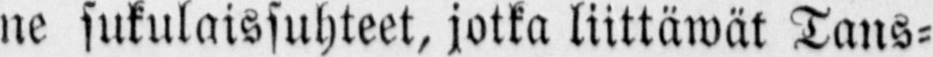ne sukulaissuhteet, jotka liittäwät Tans-
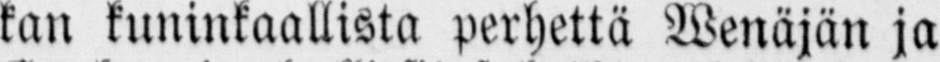kan kuninkaallista perhettä Wenäjän ja
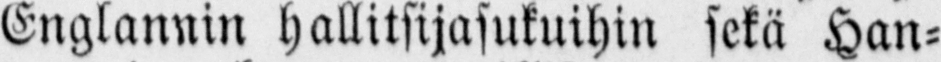Englannin hallitsijasukuihin sekä Han-
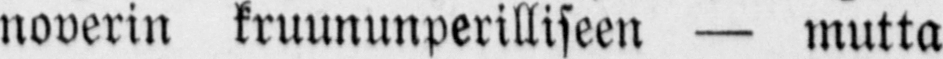noverin kruununperilliseen — mutta
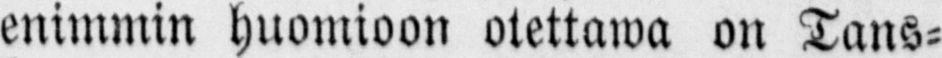enimmin huomioon olettawa on Tans-
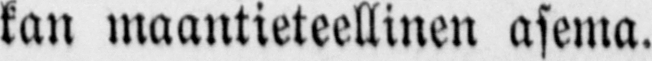kan maantieteellinen asema.
